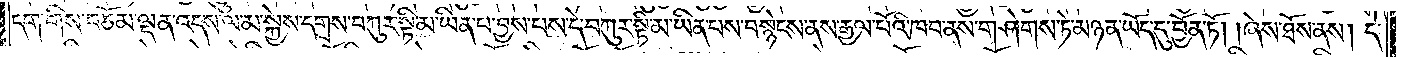དག་གིས་བཅོམ་ལྡན་འདས་ལ་མ་སྐྱེས་དགྲས་བཀུར་སྟི་མ་ཡིན་པ་བྱས་པས་དེ་བཀུར་སྟི་མ་ཡིན་པས་བསྙེངས་ནས་རྒྱལ་པོའི་ཁབ་ནས་གཤེགས་ཏེ་མཉན་ཡོད་དུ་བྱོན་ཏོ། །ཞེས་ཐོས་ནས། དེ་
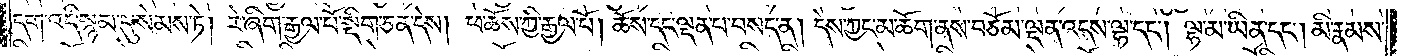དག་འདི་སྙམ་དུ་སེམས་ཏེ། རེ་ཞིག་རྒྱལ་པོ་སྡིག་ཅན་དེས། ཕ་ཆོས་ཀྱི་རྒྱལ་པོ། ཆོས་དང་ལྡན་པ་བསད་ན། དེས་ཀྱང་མཆོག་ནས་བཅོམ་ལྡན་འདས་ལྷ་དང༌། ལྷ་མ་ཡིན་དང༌། མི་རྣམས་
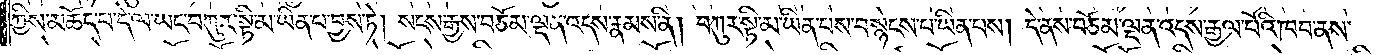ཀྱིས་མཆོད་པ་དེ་ལ་ཡང་བཀུར་སྟི་མ་ཡིན་པ་བྱས་ཏེ། སངས་རྒྱས་བཅོམ་ལྡན་འདས་རྣམས་ནི། བཀུར་སྟི་མ་ཡིན་པས་བསྙེངས་པ་ཡིན་པས། དེ་ནས་བཅོམ་ལྡན་འདས་རྒྱལ་པོའི་ཁབ་ནས་
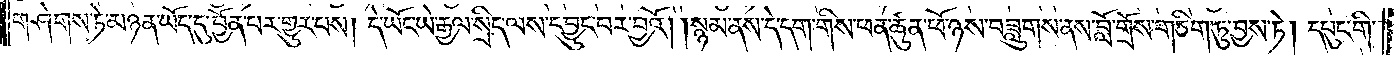གཤེགས་ཏེ་མཉན་ཡོད་དུ་བྱོན་པར་གྱུར་པས། དེ་ཡོང་ཡེ་རྒྱལ་སྲིད་ལས་དབྱུང་བར་བྱའོ། །སྙམ་ནས་དེ་དག་གིས་ཕན་ཚུན་ཕོ་ཉས་བཟླུགས་ནས་བློ་གྲོས་གཅིག་ཏུ་བྱས་ཏེ། དཔུང་གི་
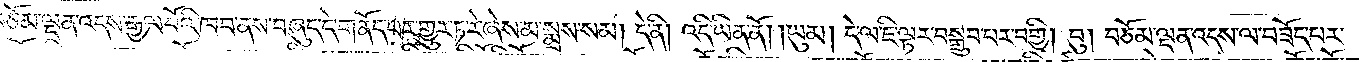བཅོམ་ལྡན་འདས་རྒྱལ་པོའི་ཁབ་ནས་བཞུད་དེ་གནོད་པར་གྱུར་ཏ་རེ་ཞེས་མ་སྨྲས་སམ། དེ་ནི། འདི་ཡིན་ནོ། །ཡུམ། དེ་ལ་ཇི་ལྟར་བསྒྲུབ་པར་བགྱི། བུ། བཅོམ་ལྡན་འདས་ལ་བཟོད་པར་
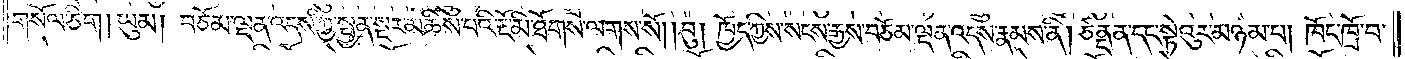གསོལ་ཅིག། ཡུམ། བཅོམ་ལྡན་འདས་ཀྱི་སྤྱན་སྔར་མཆིས་པའི་རྔོ་མི་ཐོགས་ལགས་སོ། །བུ། ཁྱོད་ཀྱིས་སངས་རྒྱས་བཅོམ་ལྡན་འདས་རྣམས་ནི། ཙནྡན་དང་སྟེའུར་མཉམ་པ། ཁོང་ཁྲོ་བ་
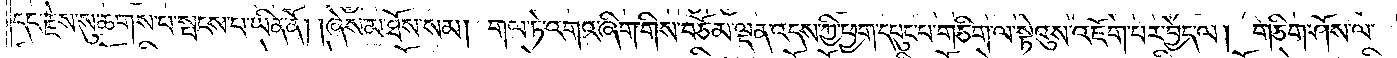དང་རྗེས་སུ་ཆགས་པ་སྤངས་པ་ཡིན་ནོ། །ཞེས་མ་ཐོས་སམ། གལ་ཏེ་འགའ་ཞིག་གིས་བཅོམ་ལྡན་འདས་ཀྱི་ཕྱག་དཔུང་པ་གཅིག་ལ་སྟེའུས་འཇོག་པར་བྱེད་ལ། གཅིག་ཤོས་ལ་
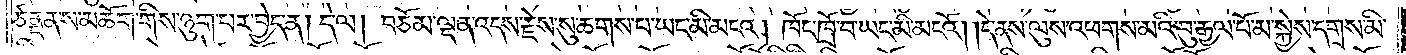ཙནྡན་ས་མཆོག་གིས་ཉུག་པར་བྱེད་ན། དེ་ལ། བཅོམ་ལྡན་འདས་རྗེས་སུ་ཆགས་པ་ཡང་མི་མངའ། ཁོང་ཁྲོ་བ་ཡང་མི་མངའོ། །དེ་ནས་ལུས་འཕགས་མའི་བུ་རྒྱལ་པོ་མ་སྐྱེས་དགྲས་མི་
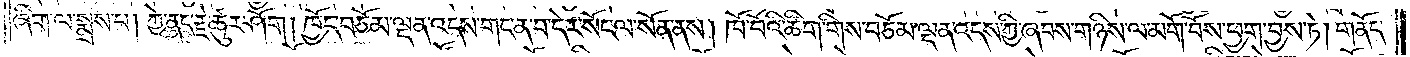ཞིག་ལ་སྨྲས་པ། ཀྱེ་ནང་རྗེ་ཚུར་ཤོག། ཁྱོད་བཅོམ་ལྡན་འདས་གང་ན་བ་དེར་སོང་ལ་སོན་ནས། ཁོ་བོའི་ཚིག་གིས་བཅོམ་ལྡན་འདས་ཀྱི་ཞབས་གཉིས་ལ་མགོ་བོས་ཕྱག་བྱས་ཏེ། གནོད་
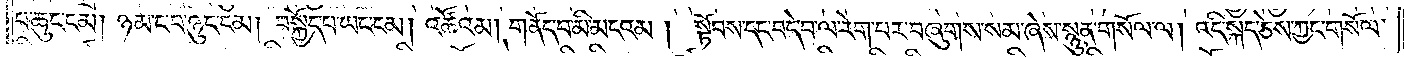པ་ཆུང་ངམ། ཉམ་ང་བ་ཉུང་ངམ། བསྐྱོད་པ་ཡང་ངམ། འཚོའམ། གནོད་པ་མི་མངའམ། སྟོབས་དང་བདེ་བ་ལ་རེག་པར་བཞུགས་སམ་ཞེས་སྙུན་གསོལ་ལ། འདི་སྐད་ཅེས་ཀྱང་གསོལ་
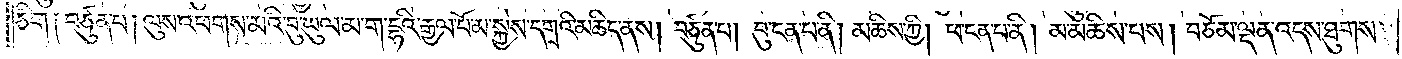ཅིག༑ བཙུན་པ། ལུས་འཕགས་མའི་བུ་ཡུལ་མ་ག་དྷའི་རྒྱལ་པོ་མ་སྐྱེས་དགྲའི་མཆིད་ནས། བཙུན་པ། བུ་ངན་པ་ནི། མཆིས་ཀྱི། ཕ་ངན་པ་ནི། མ་མཆིས་པས། བཅོམ་ལྡན་འདས་ཐུགས་
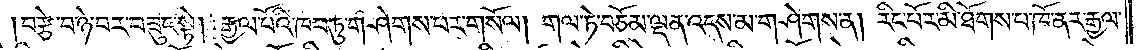བརྩེ་བ་ཉེ་བར་བཟུང་སྟེ། རྒྱལ་པོའི་ཁབ་ཏུ་གཤེགས་པར་གསོལ། གལ་ཏེ་བཅོམ་ལྡན་འདས་མ་གཤེགས་ན། རིང་པོར་མི་ཐོགས་པ་ཁོ་ནར་རྒྱལ་
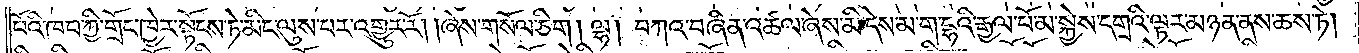པོའི་ཁབ་ཀྱི་གྲོང་ཁྱེར་སྟོངས་ཏེ་མིང་ལུས་པར་འགྱུར་རོ། །ཞེས་གསོལ་ཅིག། ལྷ། བཀའ་བཞིན་འཚལ་ཞེས་མི་དེས་མ་ག་དྷའི་རྒྱལ་པོ་མ་སྐྱེས་དགྲའི་ལྟར་མཉན་ནས་ཆས་ཏེ།
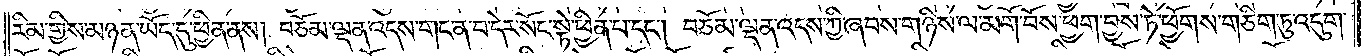རིམ་གྱིས་མཉན་ཡོད་དུ་ཕྱིན་ནས། བཅོམ་ལྡན་འདས་གང་ན་བ་དེར་སོང་སྟེ་ཕྱིན་པ་དང༌། བཅོམ་ལྡན་འདས་ཀྱི་ཞབས་གཉིས་ལ་མགོ་བོས་ཕྱག་བྱས་ཏེ་ཕྱོགས་གཅིག་ཏུ་འདུག་
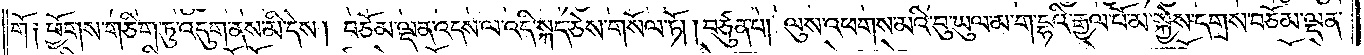གོ༑ ཕྱོགས་གཅིག་ཏུ་འདུག་ནས་མི་དེས། བཅོམ་ལྡན་འདས་ལ་འདི་སྐད་ཅེས་གསོལ་ཏོ། །བཙུན་པ། ལུས་འཕགས་མའི་བུ་ཡུལ་མ་ག་དྷའི་རྒྱལ་པོ་མ་སྐྱེས་དགྲས་བཅོམ་ལྡན་
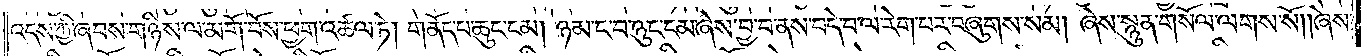འདས་ཀྱི་ཞབས་གཉིས་ལ་མགོ་བོས་ཕྱག་འཚལ་ཏེ། གནོད་པ་ཆུང་ངམ། ཉམ་ང་བ་ཉུང་ངམ་ཞེས་བྱ་བ་ནས་བདེ་བ་ལ་རེག་པར་བཞུགས་སམ། ཞེས་སྙུན་གསོལ་ལགས་སོ། །ཞེས་
